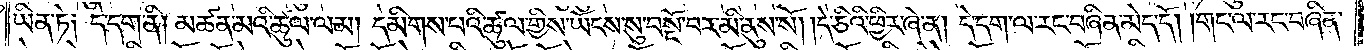ཡིན་ཏེ༑ དེ་དག་ནི། མཚན་མའི་ཚུལ་ལམ། དམིགས་པའི་ཚུལ་གྱིས་ཡོངས་སུ་བསྔོ་བར་མི་ནུས་སོ། །དེ་ཅིའི་ཕྱིར་ཞེ་ན། དེ་དག་ལ་རང་བཞིན་མེད་དོ། །གང་ལ་རང་བཞིན་
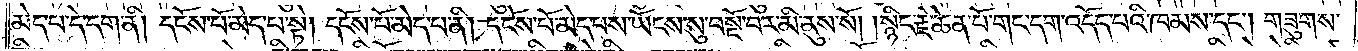མེད་པ་དེ་དག་ནི། དངོས་པོ་མེད་པ་སྟེ། དངོས་པོ་མེད་པ་ནི། དངོས་པོ་མེད་པས་ཡོངས་སུ་བསྔོ་བར་མི་ནུས་སོ། །སྙིང་རྗེ་ཆེན་པོ་གང་དག་འདོད་པའི་ཁམས་དང༌། གཟུགས་
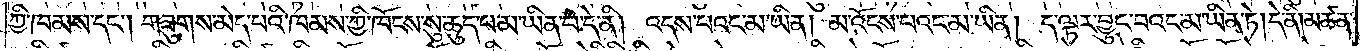ཀྱི་ཁམས་དང༌། གཟུགས་མེད་པའི་ཁམས་ཀྱི་ཁོངས་སུ་ཆུད་པ་མ་ཡིན་པ་དེ་ནི། འདས་པའང་མ་ཡིན། མ་འོངས་པའང་མ་ཡིན། ད་ལྟར་བྱུང་བའང་མ་ཡིན་ཏེ། དེ་ནི། མཚན་
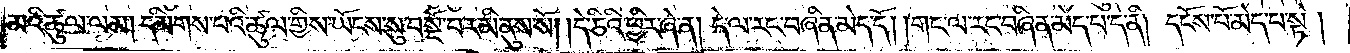མའི་ཚུལ་ལམ། དམིགས་པའི་ཚུལ་གྱིས་ཡོངས་སུ་བསྔོ་བར་མི་ནུས་སོ། །དེ་ཅིའི་ཕྱིར་ཞེ་ན། དེ་ལ་རང་བཞིན་མེད་དོ། །གང་ལ་རང་བཞིན་མེད་པ་དེ་ནི། དངོས་པོ་མེད་པ་སྟེ།
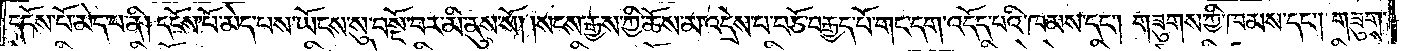དངོས་པོ་མེད་པ་ནི། དངོས་པོ་མེད་པས་ཡོངས་སུ་བསྔོ་བར་མི་ནུས་སོ། །སངས་རྒྱས་ཀྱི་ཆོས་མ་འདྲེས་པ་བཅོ་བརྒྱད་པོ་གང་དག་འདོད་པའི་ཁམས་དང༌། གཟུགས་ཀྱི་ཁམས་དང༌། གཟུགས་
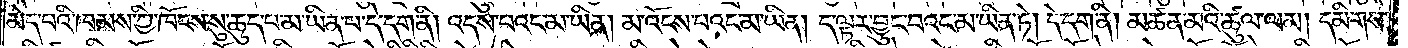མེད་པའི་ཁམས་ཀྱི་ཁོངས་སུ་ཆུད་པ་མ་ཡིན་པ་དེ་དག་ནི། འདས་པའང་མ་ཡིན། མ་འོངས་པའང་མ་ཡིན། ད་ལྟར་བྱུང་བའང་མ་ཡིན་ཏེ། དེ་དག་ནི། མཚན་མའི་ཚུལ་ལམ། དམིགས་
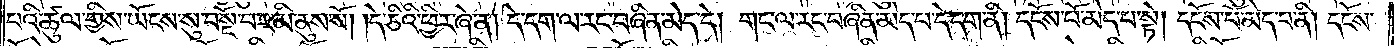པའི་ཚུལ་གྱིས་ཡོངས་སུ་བསྔོ་བར་མི་ནུས་སོ། །དེ་ཅིའི་ཕྱིར་ཞེ་ན། དེ་དག་ལ་རང་བཞིན་མེད་དེ། །གང་ལ་རང་བཞིན་མེད་པ་དེ་དག་ནི། དངོས་པོ་མེད་པ་སྟེ། དངོས་པོ་མེད་པ་ནི། དངོས་
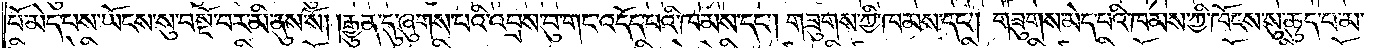པོ་མེད་པས་ཡོངས་སུ་བསྔོ་བར་མི་ནུས་སོ། །རྒྱུན་དུ་ཞུགས་པའི་འབྲས་བུ་གང་འདོད་པའི་ཁམས་དང༌། གཟུགས་ཀྱི་ཁམས་དང༌། གཟུགས་མེད་པའི་ཁམས་ཀྱི་ཁོངས་སུ་ཆུད་པ་མ་
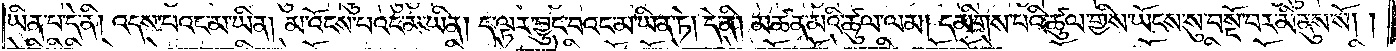ཡིན་པ་དེ་ནི། འདས་པའང་མ་ཡིན། མ་འོངས་པའང་མ་ཡིན། ད་ལྟར་བྱུང་བའང་མ་ཡིན་ཏེ། དེ་ནི། མཚན་མའི་ཚུལ་ལམ། དམིགས་པའི་ཚུལ་གྱིས་ཡོངས་སུ་བསྔོ་བར་མི་ནུས་སོ། །
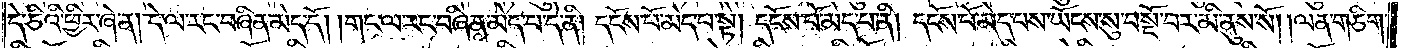དེ་ཅིའི་ཕྱིར་ཞེ་ན། དེ་ལ་རང་བཞིན་མེད་དོ། །གང་ལ་རང་བཞིན་མེད་པ་དེ་ནི། དངོས་པོ་མེད་པ་སྟེ། དངོས་པོ་མེད་པ་ནི། དངོས་པོ་མེད་པས་ཡོངས་སུ་བསྔོ་བར་མི་ནུས་སོ། །ལན་གཅིག་
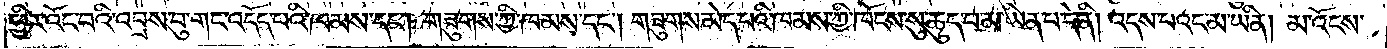ཕྱིར་འོང་བའི་འབྲས་བུ་གང་འདོད་པའི་ཁམས་དང༌། གཟུགས་ཀྱི་ཁམས་དང༌། གཟུགས་མེད་པའི་ཁམས་ཀྱི་ཁོངས་སུ་ཆུད་པ་མ་ཡིན་པ་དེ་ནི། འདས་པའང་མ་ཡིན། མ་འོངས་
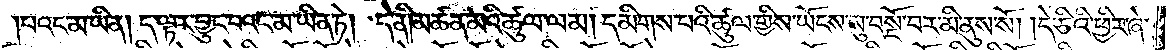པའང་མ་ཡིན། ད་ལྟར་བྱུང་བའང་མ་ཡིན་ཏེ། དེ་ནི། མཚན་མའི་ཚུལ་ལམ། དམིགས་པའི་ཚུལ་གྱིས་ཡོངས་སུ་བསྔོ་བར་མི་ནུས་སོ། །དེ་ཅིའི་ཕྱིར་ཞེ་
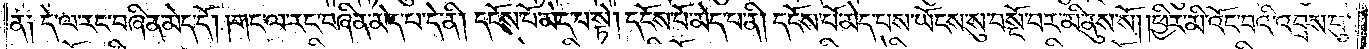ན༑ དེ་ལ་རང་བཞིན་མེད་དོ། །གང་ལ་རང་བཞིན་མེད་པ་དེ་ནི། དངོས་པོ་མེད་པ་སྟེ། དངོས་པོ་མེད་པ་ནི། དངོས་པོ་མེད་པས་ཡོངས་སུ་བསྔོ་བར་མི་ནུས་སོ། །ཕྱིར་མི་འོང་བའི་འབྲས་བུ་
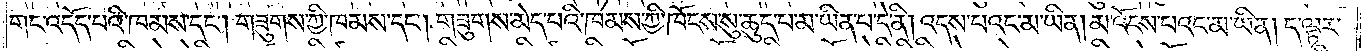གང་འདོད་པའི་ཁམས་དང༌། གཟུགས་ཀྱི་ཁམས་དང༌། གཟུགས་མེད་པའི་ཁམས་ཀྱི་ཡོངས་སུ་ཆུད་བ་མ་ཡིན་པ་དེ་ནི། འདས་པའང་མ་ཡིན། མ་འོངས་པའང་མ་ཡིན། ད་ལྟར་
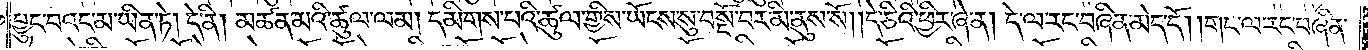བྱུང་བའང་མ་ཡིན་ཏེ། དེ་ནི། མཆན་མའི་ཚུལ་ལམ། དམིགས་པའི་ཚུལ་གྱིས་ཡོངས་སུ་བསྔོ་བར་མི་ནུས་སོ། །དེ་ཅིའི་ཕྱིར་ཞེ་ན། དེ་ལ་རང་བཞིན་མེད་དོ། །གང་ལ་རང་བཞིན་
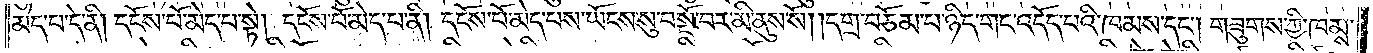མེད་པ་དེ་ནི། དངོས་པོ་མེད་པ་སྟེ། དངོས་པོ་མེད་པ་ནི། དངོས་པོ་མེད་པས་ཡོངས་སུ་བསྔོ་བར་མི་ནུས་སོ། །དགྲ་བཅོམ་པ་ཉིད་གང་འདོད་པའི་ཁམས་དང༌། གཟུགས་ཀྱི་ཁམས་
